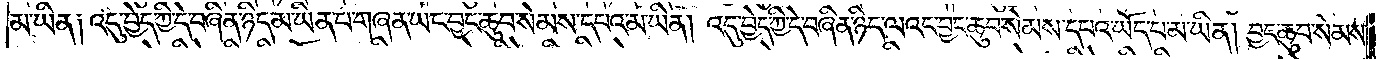མ་ཡིན༑ འདུ་བྱེད་ཀྱི་དེ་བཞིན་ཉིད་མ་ཡིན་པ་གཞན་ཡང་བྱང་ཆུབ་སེམས་དཔའ་མ་ཡིན། འདུ་བྱེད་ཀྱི་དེ་བཞིན་ཉིད་ལའང་བྱང་ཆུབ་སེམས་དཔའ་ཡོད་པ་མ་ཡིན། བྱང་ཆུབ་སེམས་
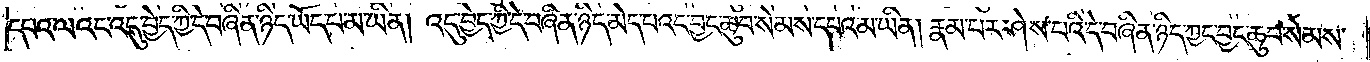དཔའ་ལའང་འདུ་བྱེད་ཀྱི་དེ་བཞིན་ཉིད་ཡོད་པ་མ་ཡིན། འདུ་བྱེད་ཀྱི་དེ་བཞིན་ཉིད་མེད་པའང་བྱང་ཆུབ་སེམས་དཔའ་མ་ཡིན། རྣམ་པར་ཤེས་པའི་དེ་བཞིན་ཉིད་ཀྱང་བྱང་ཆུབ་སེམས་
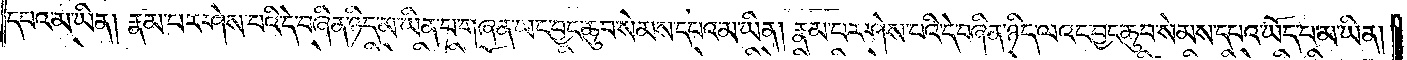དཔའ་མ་ཡིན། རྣམ་པར་ཤེས་པའི་དེ་བཞིན་ཉིད་མ་ཡིན་པ་གཞན་ཡང་བྱང་ཆུབ་སེམས་དཔའ་མ་ཡིན། རྣམ་པར་ཤེས་པའི་དེ་བཞིན་ཉིད་ལའང་བྱང་ཆུབ་སེམས་དཔའ་ཡོད་པ་མ་ཡིན།
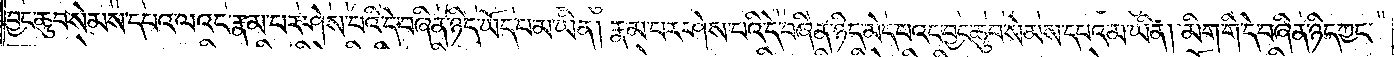བྱང་ཆུབ་སེམས་དཔའ་ལའང་རྣམ་པར་ཤེས་པའི་དེ་བཞིན་ཉིད་ཡོད་པ་མ་ཡིན། རྣམ་པར་ཤེས་པའི་དེ་བཞིན་ཉིད་མེད་པའང་བྱང་ཆུབ་སེམས་དཔའ་མ་ཡིན། མིག་གི་དེ་བཞིན་ཉིད་ཀྱང་
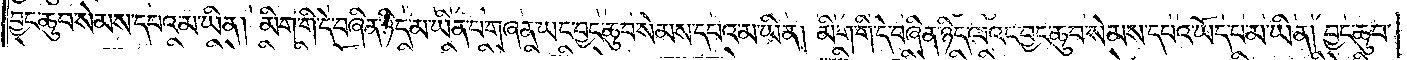བྱང་ཆུབ་སེམས་དཔའ་མ་ཡིན། མིག་གི་དེ་བཞིན་ཉིད་མ་ཡིན་པ་གཞན་ཡང་བྱང་ཆུབ་སེམས་དཔའ་མ་ཡིན། མིག་གི་དེ་བཞིན་ཉིད་ལའང་བྱང་ཆུབ་སེམས་དཔའ་ཡོད་པ་མ་ཡིན། བྱང་ཆུབ་
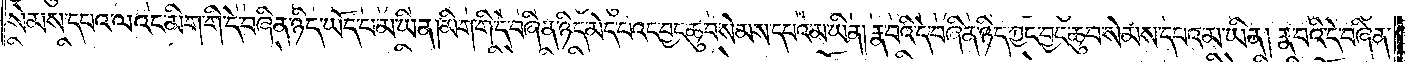སེམས་དཔའ་ལའང་མིག་གི་དེ་བཞིན་ཉིད་ཡོད་པ་མ་ཡིན། མིག་གི་དེ་བཞིན་ཉིད་མེད་པའང་བྱང་ཆུབ་སེམས་དཔའ་མ་ཡིན། རྣ་བའི་དེ་བཞིན་ཉིད་ཀྱང་བྱང་ཆུབ་སེམས་དཔའ་མ་ཡིན། རྣ་བའི་དེ་བཞིན་
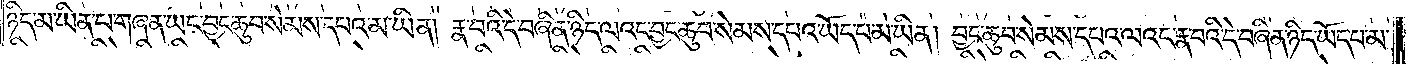ཉིད་མ་ཡིན་པ་གཞན་ཡང་བྱང་ཆུབ་སེམས་དཔའ་མ་ཡིན། རྣ་བའི་དེ་བཞིན་ཉིད་ལའང་བྱང་ཆུབ་སེམས་དཔའ་ཡོད་པ་མ་ཡིན། བྱང་ཆུབ་སེམས་དཔའ་ལའང་རྣ་བའི་དེ་བཞིན་ཉིད་ཡོད་པ་མ་
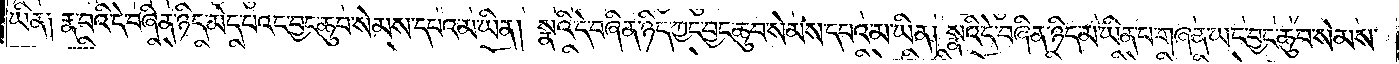ཡིན༑ རྣ་བའི་དེ་བཞིན་ཉིད་མེད་པའང་བྱང་ཆུབ་སེམས་དཔའ་མ་ཡིན། སྣའི་དེ་བཞིན་ཉིད་ཀྱང་བྱང་ཆུབ་སེམས་དཔའ་མ་ཡིན། སྣའི་དེ་བཞིན་ཉིད་མ་ཡིན་པ་གཞན་ཡང་བྱང་ཆུབ་སེམས་
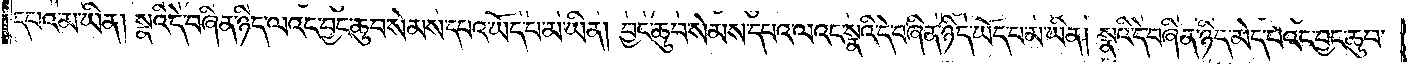དཔའ་མ་ཡིན། སྣའི་དེ་བཞིན་ཉིད་ལའང་བྱང་ཆུབ་སེམས་དཔའ་ཡོད་པ་མ་ཡིན། བྱང་ཆུབ་སེམས་དཔའ་ལའང་སྣའི་དེ་བཞིན་ཉིད་ཡོད་པ་མ་ཡིན། སྣའི་དེ་བཞིན་ཉིད་མེད་པའང་བྱང་ཆུབ་
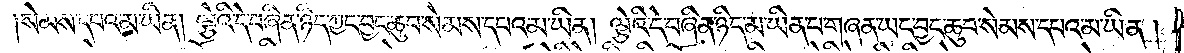སེམས་དཔའ་མ་ཡིན། ལྕེའི་དེ་བཞིན་ཉིད་ཀྱང་བྱང་ཆུབ་སེམས་དཔའ་མ་ཡིན། ལྕེའི་དེ་བཞིན་ཉིད་མ་ཡིན་པ་གཞན་ཡང་བྱང་ཆུབ་སེམས་དཔའ་མ་ཡིན་།
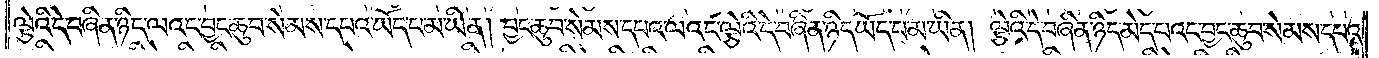ལྕེའི་དེ་བཞིན་ཉིད་ལའང་བྱང་ཆུབ་སེམས་དཔའ་ཡོད་པ་མ་ཡིན། བྱང་ཆུབ་སེམས་དཔའ་ལའང་ལྕེའི་དེ་བཞིན་ཉིད་ཡོད་པ་མ་ཡིན། ལྕེའི་དེ་བཞིན་ཉིད་མེད་པའང་བྱང་ཆུབ་སེམས་དཔའ་
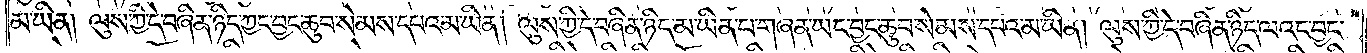མ་ཡིན། ལུས་ཀྱི་དེ་བཞིན་ཉིད་ཀྱང་བྱང་ཆུབ་སེམས་དཔའ་མ་ཡིན། ལུས་ཀྱི་དེ་བཞིན་ཉིད་མ་ཡིན་པ་གཞན་ཡང་བྱང་ཆུབ་སེམས་དཔའ་མ་ཡིན། ལུས་ཀྱི་དེ་བཞིན་ཉིད་ལའང་བྱང་
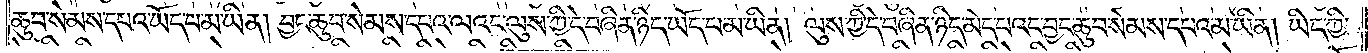ཆུབ་སེམས་དཔའ་ཡོད་པ་མ་ཡིན། བྱང་ཆུབ་སེམས་དཔའ་ལའང་ལུས་ཀྱི་དེ་བཞིན་ཉིད་ཡོད་པ་མ་ཡིན། ལུས་ཀྱི་དེ་བཞིན་ཉིད་མེད་པའང་བྱང་ཆུབ་སེམས་དཔའ་མ་ཡིན། ཡིད་ཀྱི་
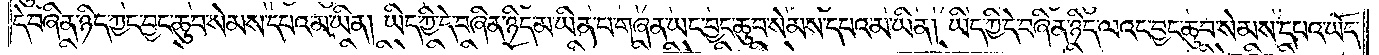དེ་བཞིན་ཉིད་ཀྱང་བྱང་ཆུབ་སེམས་དཔའ་མ་ཡིན། ཡིད་ཀྱི་དེ་བཞིན་ཉིད་མ་ཡིན་པ་གཞན་ཡང་བྱང་ཆུབ་སེམས་དཔའ་མ་ཡིན། ཡིད་ཀྱི་དེ་བཞིན་ཉིད་ལའང་བྱང་ཆུབ་སེམས་དཔའ་ཡོད་
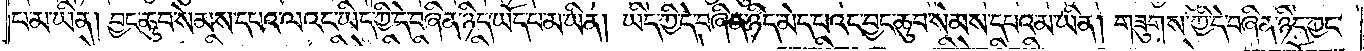པ་མ་ཡིན། བྱང་ཆུབ་སེམས་དཔའ་ལའང་ཡིད་ཀྱི་དེ་བཞིན་ཉིད་ཡོད་པ་མ་ཡིན། ཡིད་ཀྱི་དེ་བཞིན་ཉིད་མེད་པའང་བྱང་ཆུབ་སེམས་དཔའ་མ་ཡིན། གཟུགས་ཀྱི་དེ་བཞིན་ཉིད་ཀྱང་
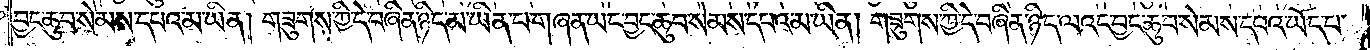བྱང་ཆུབ་སེམས་དཔའ་མ་ཡིན། གཟུགས་ཀྱི་དེ་བཞིན་ཉིད་མ་ཡིན་པ་གཞན་ཡང་བྱང་ཆུབ་སེམས་དཔའ་མ་ཡིན། གཟུགས་ཀྱི་དེ་བཞིན་ཉིད་ལའང་བྱང་ཆུབ་སེམས་དཔའ་ཡོད་པ་
